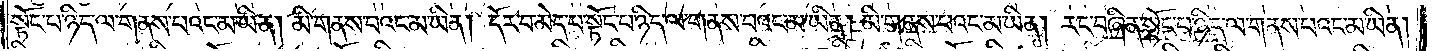སྟོང་པ་ཉིད་ལ་གནས་པའང་མ་ཡིན། མི་གནས་པའང་མ་ཡིན། དོར་བ་མེད་པ་སྟོང་པ་ཉིད་ལ་གནས་པའང་མ་ཡིན། མི་གནས་པའང་མ་ཡིན། རང་བཞིན་སྟོང་པ་ཉིད་ལ་གནས་པའང་མ་ཡིན།
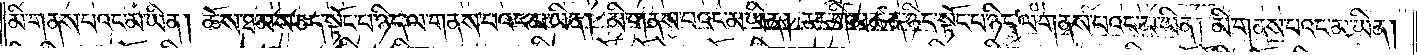མི་གནས་པའང་མ་ཡིན། ཆོས་ཐམས་ཅད་སྟོང་པ་ཉིད་ལ་གནས་པའང་མ་ཡིན། མི་གནས་པའང་མ་ཡིན། རང་གི་མཚན་ཉིད་སྟོང་པ་ཉིད་ལ་གནས་པའང་མ་ཡིན། མི་གནས་པའང་མ་ཡིན།
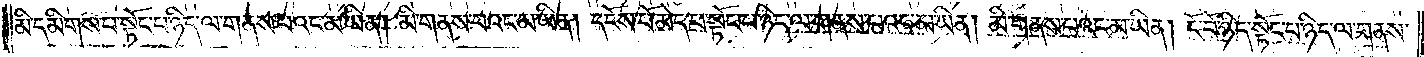མི་དམིགས་པ་སྟོང་པ་ཉིད་ལ་གནས་པའང་མ་ཡིན། མི་གནས་པའང་མ་ཡིན། དངོས་པོ་མེད་པ་སྟོང་པ་ཉིད་ལ་གནས་པའང་མ་ཡིན། མི་གནས་པའང་མ་ཡིན། ངོ་བོ་ཉིད་སྟོང་པ་ཉིད་ལ་གནས་
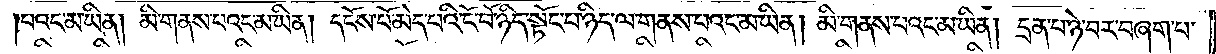པའང་མ་ཡིན། མི་གནས་པའང་མ་ཡིན། དངོས་པོ་མེད་པའི་ངོ་བོ་ཉིད་སྟོང་པ་ཉིད་ལ་གནས་པའང་མ་ཡིན། མི་གནས་པའང་མ་ཡིན། དྲན་པ་ཉེ་བར་བཞག་པ་
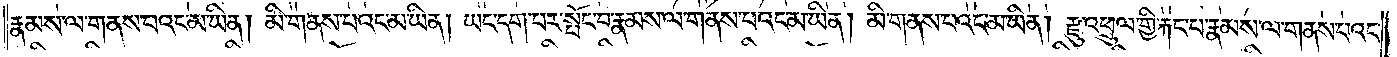རྣམས་ལ་གནས་པའང་མ་ཡིན། མི་གནས་པའང་མ་ཡིན། ཡང་དག་པར་སྤོང་བ་རྣམས་ལ་གནས་པའང་མ་ཡིན། མི་གནས་པའང་མ་ཡིན། རྫུ་འཕྲུལ་གྱི་རྐང་པ་རྣམས་ལ་གནས་པའང་
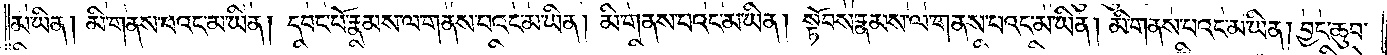མ་ཡིན། མི་གནས་པའང་མ་ཡིན། དབང་པོ་རྣམས་ལ་གནས་པའང་མ་ཡིན། མི་གནས་པའང་མ་ཡིན། སྟོབས་རྣམས་ལ་གནས་པའང་མ་ཡིན། མི་གནས་པའང་མ་ཡིན། བྱང་ཆུབ་
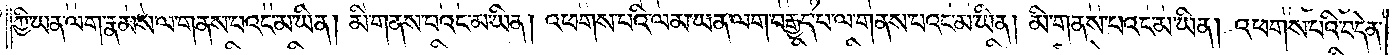ཀྱི་ཡན་ལག་རྣམས་ལ་གནས་པའང་མ་ཡིན། མི་གནས་པའང་མ་ཡིན། འཕགས་པའི་ལམ་ཡན་ལག་བརྒྱད་པ་ལ་གནས་པའང་མ་ཡིན། མི་གནས་པའང་མ་ཡིན། འཕགས་པའི་བདེན་
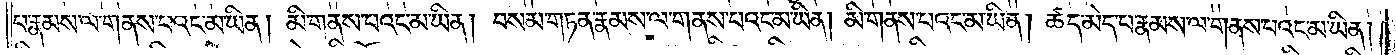པ་རྣམས་ལ་གནས་པའང་མ་ཡིན། མི་གནས་པའང་མ་ཡིན། བསམ་གཏན་རྣམས་ལ་གནས་པའང་མ་ཡིན། མི་གནས་པའང་མ་ཡིན། ཚད་མེད་པ་རྣམས་ལ་གནས་པའང་མ་ཡིན།
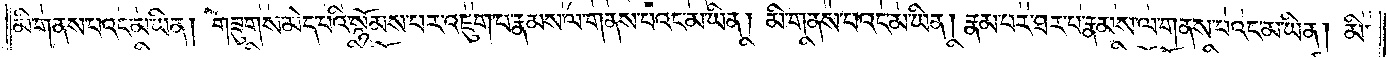མི་གནས་པའང་མ་ཡིན། གཟུགས་མེད་པའི་སྙོམས་པར་འཇུག་པ་རྣམས་ལ་གནས་པའང་མ་ཡིན། མི་གནས་པའང་མ་ཡིན། རྣམ་པར་ཐར་པ་རྣམས་ལ་གནས་པའང་མ་ཡིན། མི་
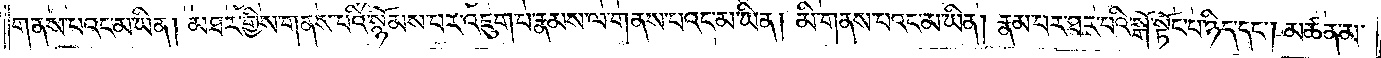གནས་པའང་མ་ཡིན། མཐར་གྱིས་གནས་པའི་སྙོམས་པར་འཇུག་པ་རྣམས་ལ་གནས་པའང་མ་ཡིན། མི་གནས་པའང་མ་ཡིན། རྣམ་པར་ཐར་པའི་སྒོ་སྟོང་པ་ཉིད་དང༌། མཚན་མ་
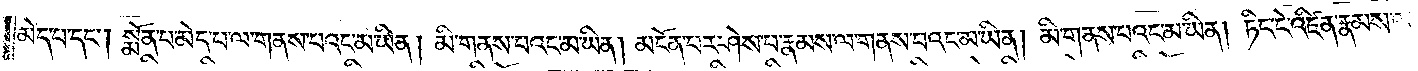མེད་པ་དང༌། སྨོན་པ་མེད་པ་ལ་གནས་པའང་མ་ཡིན། མི་གནས་པའང་མ་ཡིན། མངོན་པར་ཤེས་པ་རྣམས་ལ་གནས་པའང་མ་ཡིན། མི་གནས་པའང་མ་ཡིན། ཏིང་ངེ་འཛིན་རྣམས་ལ་
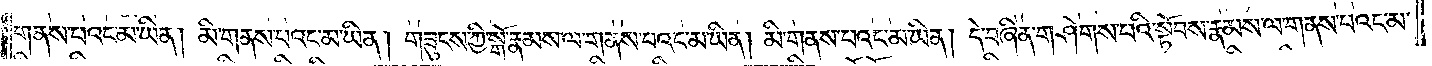གནས་པའང་མ་ཡིན། མི་གནས་པའང་མ་ཡིན། གཟུངས་ཀྱི་སྒོ་རྣམས་ལ་གནས་པའང་མ་ཡིན། མི་གནས་པའང་མ་ཡིན། དེ་བཞིན་གཤེགས་པའི་སྟོབས་རྣམས་ལ་གནས་པའང་མ་
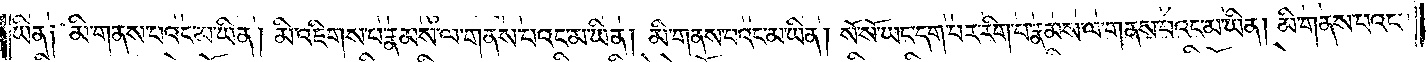ཡིན། མི་གནས་པའང་མ་ཡིན། མི་འཇིགས་པ་རྣམས་ལ་གནས་པའང་མ་ཡིན། མི་གནས་པའང་མ་ཡིན། སོ་སོ་ཡང་དག་པར་རིག་པ་རྣམས་ལ་གནས་པའང་མ་ཡིན། མི་གནས་པའང་
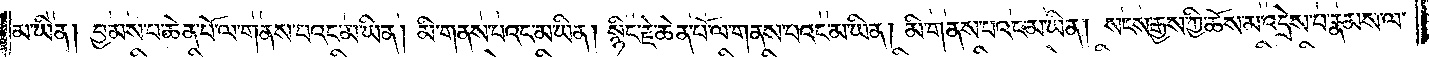མ་ཡིན། བྱམས་པ་ཆེན་པོ་ལ་གནས་པའང་མ་ཡིན། མི་གནས་པའང་མ་ཡིན། སྙིང་རྗེ་ཆེན་པོ་ལ་གནས་པའང་མ་ཡིན། མི་གནས་པའང་མ་ཡིན། སངས་རྒྱས་ཀྱི་ཆོས་མ་འདྲེས་པ་རྣམས་ལ་
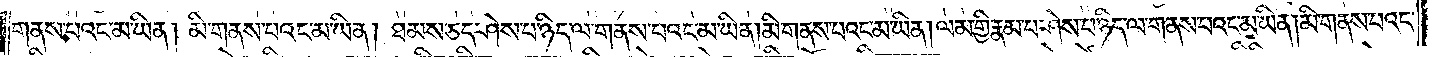གནས་པའང་མ་ཡིན། མི་གནས་པའང་མ་ཡིན། ཐམས་ཅད་ཤེས་པ་ཉིད་ལ་གནས་པའང་མ་ཡིན། མི་གནས་པའང་མ་ཡིན། ལམ་གྱི་རྣམ་པ་ཤེས་པ་ཉིད་ལ་གནས་པའང་མ་ཡིན། མི་གནས་པའང་
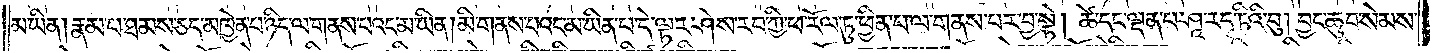མ་ཡིན། རྣམ་པ་ཐམས་ཅད་མཁྱེན་པ་ཉིད་ལ་གནས་པའང་མ་ཡིན། མི་གནས་པའང་མ་ཡིན་པ་དེ་ལྟར་ཤེས་རབ་ཀྱི་ཕ་རོལ་ཏུ་ཕྱིན་པ་ལ་གནས་པར་བྱ་སྟེ། ཚེ་དང་ལྡན་པ་ཤཱ་ར་དྭ་ཏིའི་བུ། བྱང་ཆུབ་སེམས་
